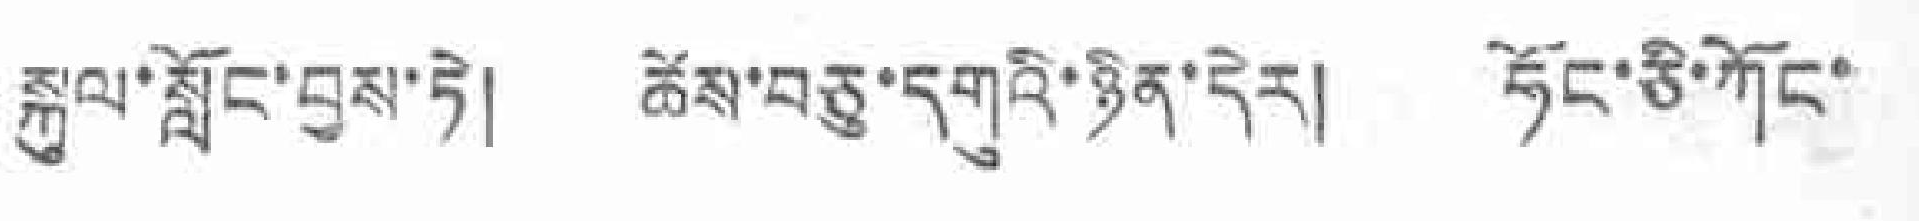སྐུལ་སློང་བྱས་ཏེ། ཚེས་བཅུ་དགུའི་ཉིན་དེར། ཧོང་ཅི་ཀོང་
